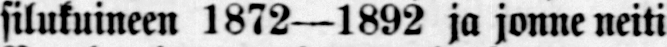silukuineen 1872—1892 ja jonne neiti
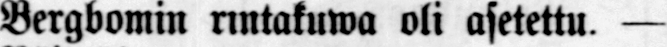Bergbomin rintakuwa oli asetettu. —
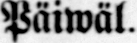Päiwäl.
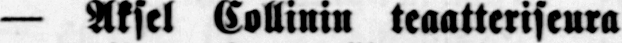— Aksel Collinin teaatterisrura
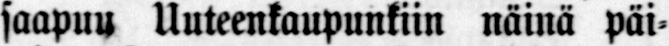saapuu Uuteenkaupunkiin näinä päi-
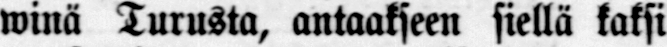winä Turusta, antaakseen siellä kaksi
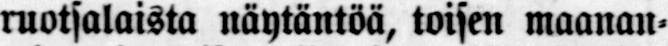ruotsalaista näytäntöä, toisen maanan-
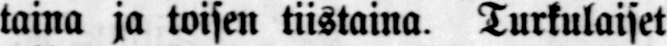taina ja toisen tiistaina. Turkulaiset
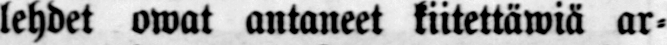lehdet owat antaneet kiitettäwiä ar-
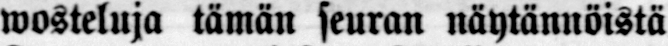wosteluja tämän seuran näytännöistä
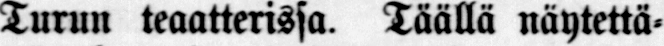Turun teaatterissa. Täällä näytettä-
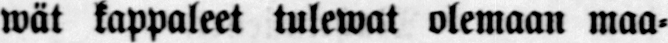wät kappaleet tulewat olemaan maa-
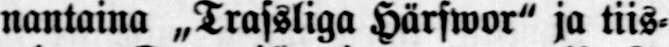nantaina „Trassliga Härswor" ja tiis-
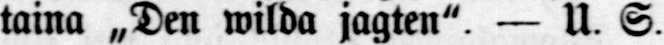taina „Den wilda jagten" — U. S.
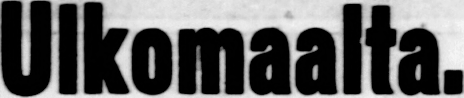Ulkomaalta.
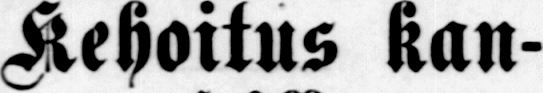Kehoitus kan-
